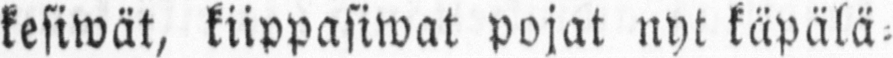kesiwät, kiippasiwat pojat nyt käpälä-
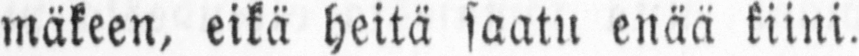mäkeen, eikä heitä saatu enää kiini.
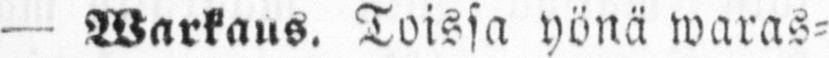— Warkaus. Toissa yönä waras-
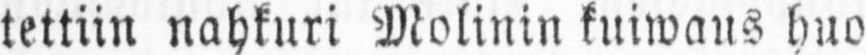tettiin nahkuri Molinin kuiwaus huo-
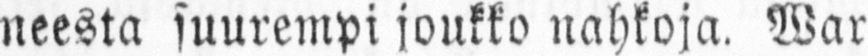neesta suurempi joukko nahkoja. War-
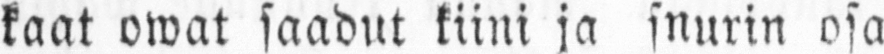kaat owat saadut kiini ja snurin osa
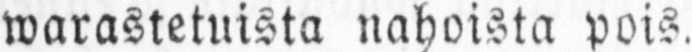warastetuista nahoista pois.
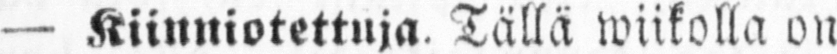— Kiinniotettuja. Tällä wiikolla on
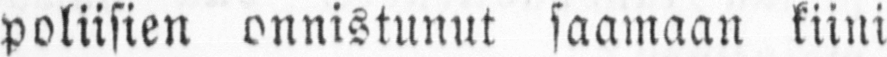poliisien onnistunut saamaan kiini
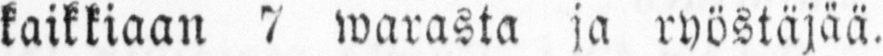kaikkiaan 7 warasta ja ryöstäjää.
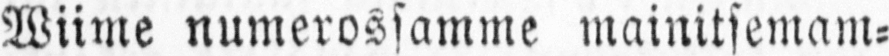Wiime numerossamme mainitsemam-
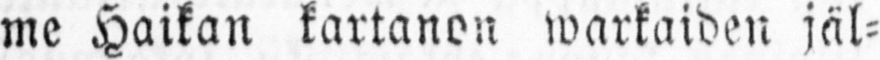me Haikan kartanon warkaiden jäl-
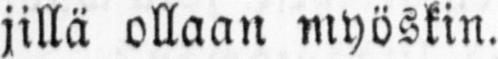jillä ollaan myöskin.
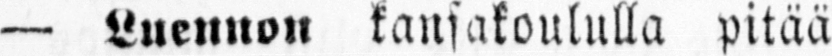— Luennon kansakoululla pitää
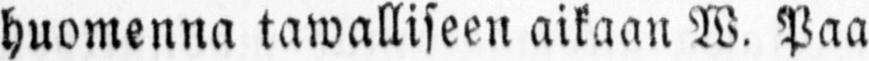huomenna tawalliseen aikaan W. Paa-
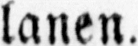lanen.
